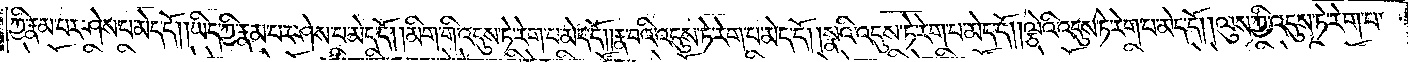ཀྱི་རྣམ་པར་ཤེས་པ་མེད་དོ། །ཡིད་ཀྱི་རྣམ་པར་ཤེས་པ་མེད་དོ། །མིག་གི་འདུས་ཏེ་རེག་པ་མེད་དོ། །རྣ་བའི་འདུས་ཏེ་རེག་པ་མེད་དོ། །སྣའི་འདུས་ཏེ་རེག་པ་མེད་དོ། །ལྕེའི་འདུས་ཏེ་རེག་པ་མེད་དོ། །ལུས་ཀྱི་འདུས་ཏེ་རེག་པ་
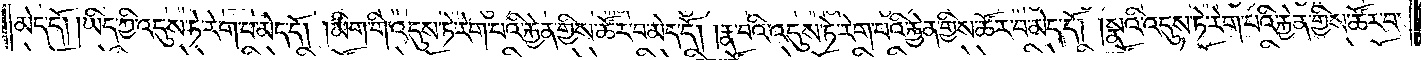མེད་དོ། །ཡིད་ཀྱི་འདུས་ཏེ་རེག་པ་མེད་དོ། །མིག་གི་འདུས་ཏེ་རེག་པའི་རྐྱེན་གྱིས་ཚོར་བ་མེད་དོ། །རྣ་བའི་འདུས་ཏེ་རེག་པའི་རྐྱེན་གྱིས་ཚོར་བ་མེད་དོ། །སྣའི་འདུས་ཏེ་རེག་པའི་རྐྱེན་གྱིས་ཚོར་བ་
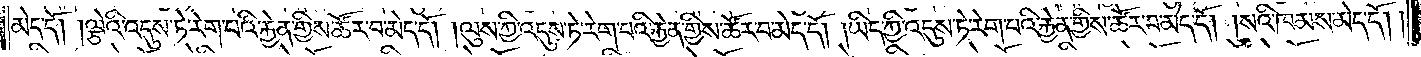མེད་དོ། །ལྕེའི་འདུས་ཏེ་རེག་པའི་རྐྱེན་གྱིས་ཚོར་བ་མེད་དོ། །ལུས་ཀྱི་འདུས་ཏེ་རེག་པའི་རྐྱེན་གྱིས་ཚོར་བ་མེད་དོ། །ཡིད་ཀྱི་འདུས་ཏེ་རེག་པའི་རྐྱེན་གྱིས་ཚོར་བ་མེད་དོ། །སའི་ཁམས་མེད་དོ། །
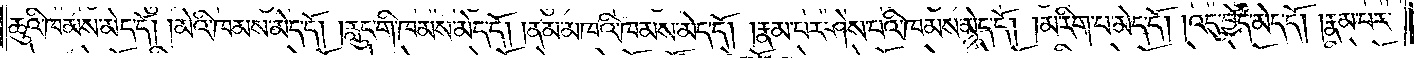ཆུའི་ཁམས་མེད་དོ། །མེའི་ཁམས་མེད་དོ། །རླུང་གི་ཁམས་མེད་དོ། །ནམ་མཁའི་ཁམས་མེད་དོ། །རྣམ་པར་ཤེས་པའི་ཁམས་མེད་དོ། །མ་རིག་པ་མེད་དོ། །འདུ་བྱེད་མེད་དོ། །རྣམ་པར་
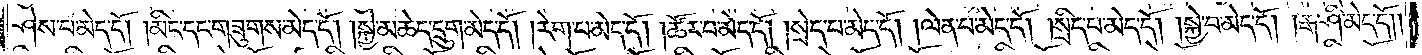ཤེས་པ་མེད་དོ། །མིང་དང་གཟུགས་མེད་དོ། །སྐྱེ་མཆེད་དྲུག་མེད་དོ། །རེག་པ་མེད་དོ། །ཚོར་བ་མེད་དོ། །སྲེད་པ་མེད་དོ། །ལེན་པ་མེད་དོ། །སྲིད་པ་མེད་དོ། །སྐྱེ་བ་མེད་དོ། །རྒ་ཤི་མེད་དོ། །
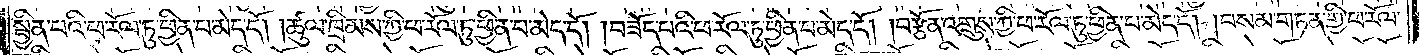སྦྱིན་པའི་ཕ་རོལ་ཏུ་ཕྱིན་པ་མེད་དོ། །ཚུལ་ཁྲིམས་ཀྱི་ཕ་རོལ་ཏུ་ཕྱིན་པ་མེད་དོ། །བཟོད་པའི་ཕ་རོལ་ཏུ་ཕྱིན་པ་མེད་དོ། །བརྩོན་འགྲུས་ཀྱི་ཕ་རོལ་ཏུ་ཕྱིན་པ་མེད་དོ། །བསམ་གཏན་གྱི་ཕ་རོལ་
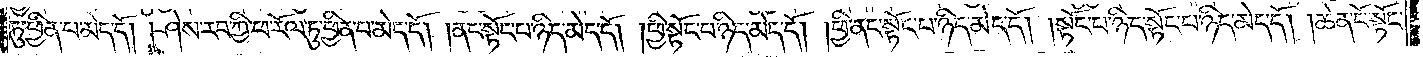ཏུ་ཕྱིན་པ་མེད་དོ། །ཤེས་རབ་ཀྱི་ཕ་རོལ་ཏུ་ཕྱིན་པ་མེད་དོ། །ནང་སྟོང་པ་ཉིད་མེད་དོ། །ཕྱི་སྟོང་པ་ཉིད་མེད་དོ། །ཕྱི་ནང་སྟོང་པ་ཉིད་མེད་དོ། །སྟོང་པ་ཉིད་སྟོང་པ་ཉིད་མེད་དོ། །ཆེན་པོ་སྟོང་
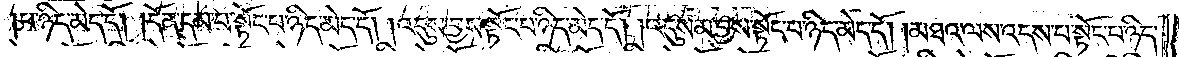པ་ཉིད་མེད་དོ། །དོན་དམ་པ་སྟོང་པ་ཉིད་མེད་དོ། །འདུས་བྱས་སྟོང་པ་ཉིད་མེད་དོ། །འདུས་མ་བྱས་སྟོང་པ་ཉིད་མེད་དོ། །མཐའ་ལས་འདས་པ་སྟོང་པ་ཉིད་
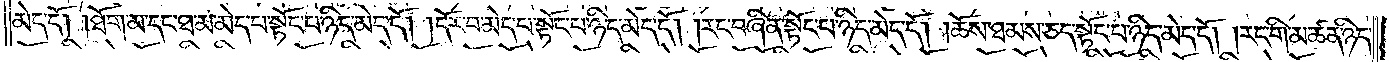མེད་དོ། །ཐོག་མ་དང་ཐ་མ་མེད་པ་སྟོང་པ་ཉིད་མེད་དོ། །དོར་བ་མེད་པ་སྟོང་པ་ཉིད་མེད་དོ། །རང་བཞིན་སྟོང་པ་ཉིད་མེད་དོ། །ཆོས་ཐམས་ཅད་སྟོང་པ་ཉིད་མེད་དོ། །རང་གི་མཚན་ཉིད་
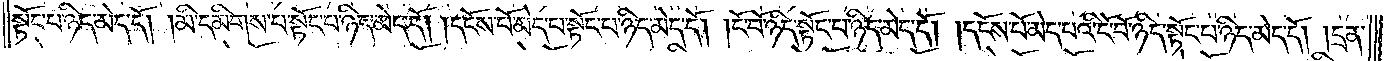སྟོང་པ་ཉིད་མེད་དོ། །མི་དམིགས་པ་སྟོང་པ་ཉིད་མེད་དོ། །དངོས་པོ་མེད་པ་སྟོང་པ་ཉིད་མེད་དོ། །ངོ་བོ་ཉིད་སྟོང་པ་ཉིད་མེད་དོ། །དངོས་པོ་མེད་པའི་ངོ་བོ་ཉིད་སྟོང་པ་ཉིད་མེད་དོ། །དྲན་
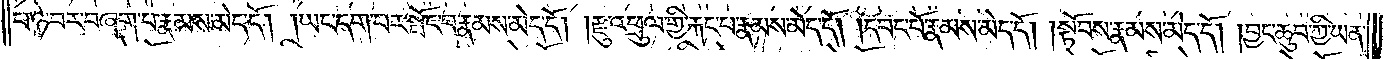པ་ཉེ་བར་བཞག་པ་རྣམས་མེད་དོ། །ཡང་དག་པར་སྤོང་བ་རྣམས་མེད་དོ། །རྫུ་འཕྲུལ་གྱི་རྐང་པ་རྣམས་མེད་དོ། །དབང་པོ་རྣམས་མེད་དོ། །སྟོབས་རྣམས་མེད་དོ། །བྱང་ཆུབ་ཀྱི་ཡན་
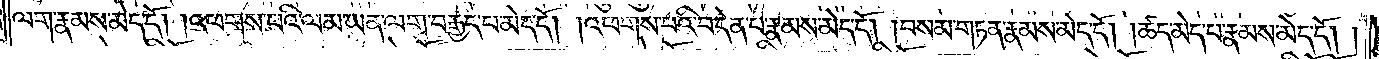ལག་རྣམས་མེད་དོ། །འཕགས་པའི་ལམ་ཡན་ལག་བརྒྱད་པ་མེད་དོ། །འཕགས་པའི་བདེན་པ་རྣམས་མེད་དོ། །བསམ་གཏན་རྣམས་མེད་དོ། །ཚད་མེད་པ་རྣམས་མེད་དོ། །
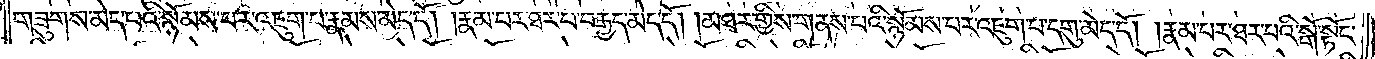གཟུགས་མེད་པའི་སྙོམས་པར་འཇུག་པ་རྣམས་མེད་དོ། །རྣམ་པར་ཐར་པ་བརྒྱད་མེད་དོ། །མཐར་གྱིས་གནས་པའི་སྙོམས་པར་འཇུག་པ་དགུ་མེད་དོ། །རྣམ་པར་ཐར་པའི་སྒོ་སྟོང་
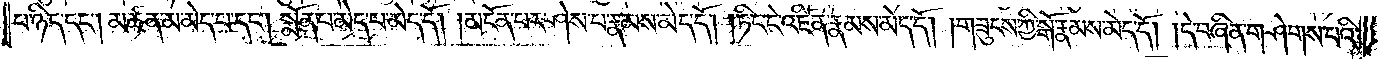པ་ཉིད་དང༌། མཚན་མ་མེད་པ་དང༌། སྨོན་པ་མེད་པ་མེད་དོ། །མངོན་པར་ཤེས་པ་རྣམས་མེད་དོ། །ཏིང་ངེ་འཛིན་རྣམས་མེད་དོ། །གཟུངས་ཀྱི་སྒོ་རྣམས་མེད་དོ། །དེ་བཞིན་གཤེགས་པའི་
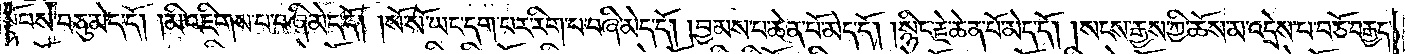སྟོབས་བཅུ་མེད་དོ། །མི་འཇིགས་པ་བཞི་མེད་དོ། །སོ་སོ་ཡང་དག་པར་རིག་པ་བཞི་མེད་དོ། །བྱམས་པ་ཆེན་པོ་མེད་དོ། །སྙིང་རྗེ་ཆེན་པོ་མེད་དོ། །སངས་རྒྱས་ཀྱི་ཆོས་མ་འདྲེས་པ་བཅོ་བརྒྱད་
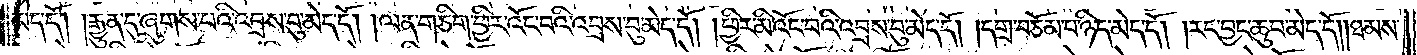མེད་དོ། །རྒྱུན་དུ་ཞུགས་པའི་འབྲས་བུ་མེད་དོ། །ལན་གཅིག་ཕྱིར་འོང་བའི་འབྲས་བུ་མེད་དོ། །ཕྱིར་མི་འོང་བའི་འབྲས་བུ་མེད་དོ། །དགྲ་བཅོམ་པ་ཉིད་མེད་དོ། །རང་བྱང་ཆུབ་མེད་དོ། །ཐམས་
